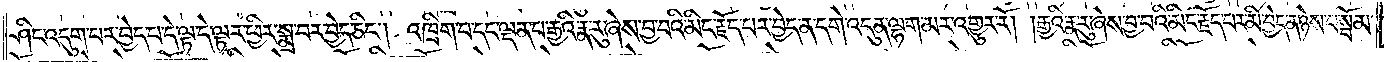ཤིང་འདུག་པར་བྱེད་པ་དེ་ལྟ་དེ་ལྟར་ཕྱིར་སྨྲ་བར་བྱེད་ཅིང༌། འཁྲིག་པ་དང་ལྡན་པ་རྒྱའི་རྣ་རུ་ཞེས་བྱ་བའི་མིང་རྗོད་པར་བྱེད་ན་དགེ་འདུན་ལྷག་མར་འགྱུར་རོ། །རྒྱའི་རྣ་རུ་ཞེས་བྱ་བའི་མིང་རྗོད་པར་མི་བྱེད་ན་ཉེས་པ་སྦོམ་
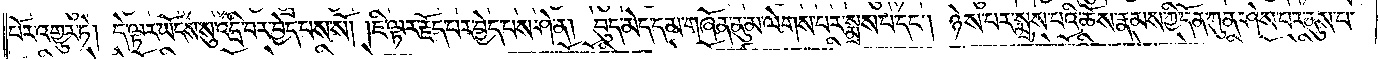པོར་འགྱུར་ཏེ། དེ་ལྟར་ཡོངས་སུ་འདྲི་བར་བྱེད་པས་སོ། །ཇི་ལྟར་རྗོད་པར་བྱེད་པས་ཤེ་ན། བུད་མེད་དམ་གཞོན་ནུ་མ་ལེགས་པར་སྨྲས་པ་དང༌། ཉེས་པར་སྨྲས་པའི་ཆོས་རྣམས་ཀྱི་དོན་ཀུན་ཤེས་པར་ནུས་པ་
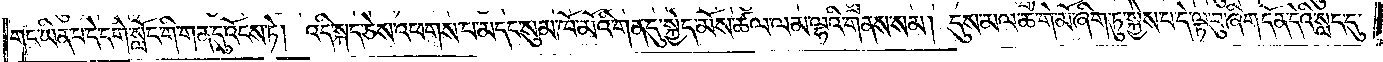གང་ཡིན་པ་དེ་དགེ་སློང་གི་གན་དུ་འོངས་ཏེ། འདི་སྐད་ཅེས་འཕགས་པ་མ་དང་སུ་མ་ཁོ་མོའི་གན་དུ་སྐྱེད་མོས་ཚལ་ལམ་ལྷའི་གནས་སམ། དུས་མལ་ཆེ་གེ་མོ་ཞིག་ཏུ་སྐྱེས་པ་དེ་ལྟ་བུ་ཞིག་དོན་དེའི་སླད་དུ་
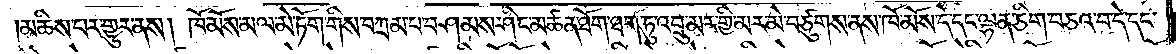།མཆིས་པར་གྱུར་ནས། ཁོ་མོས་མལ་མེ་ཏོག་གིས་བཀྲམ་པ་བཤམས་ཤིང་མཚན་ཐོག་ཐག་ཏུ་འབྲུ་མར་གྱི་མར་མེ་བཙུགས་ནས་ཁོ་མོས་དེ་དང་ལྷན་ཅིག་བཅའ་བ་དེ་དང་
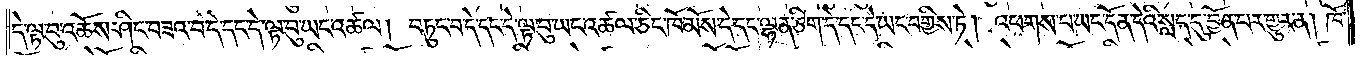དེ་ལྟ་བུ་འཆོས་ཤིང་བཟའ་བ་དེ་དང་དེ་ལྟ་བུ་ཡང་འཚལ། བཏུང་བ་དེ་དང་དེ་ལྟ་བུ་ཡང་འཚལ་ཅིང་ཁོ་མོས་དེ་དང་ལྷན་ཅིག་དེ་དང་དེ་ཡང་བགྱིས་ཏེ། འཕགས་པ་ཡང་དོན་དེའི་སླད་དུ་བྱོན་པར་གྱུར་ན། ཁོ་
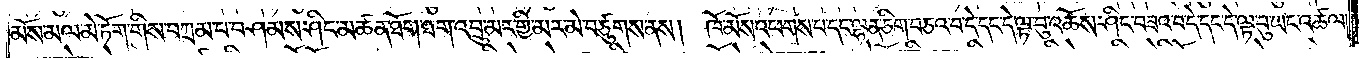མོས་མལ་མེ་ཏོག་གིས་བཀྲམ་པ་བཤམས་ཤིང་མཚན་ཐོག་ཐག་འབྲུ་མར་གྱི་མར་མེ་བཙུགས་ནས། ཁོ་མོས་འཕགས་པ་དང་ལྷན་ཅིག་བཅའ་བ་དེ་དང་དེ་ལྟ་བུ་འཆོས་ཤིང་བཟའ་བ་དེ་དང་དེ་ལྟ་བུ་ཡང་འཚལ།
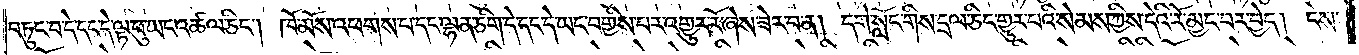བཏུང་བ་དེ་དང་དེ་ལྟ་བུ་ཡང་འཚལ་ཅིང༌། ཁོ་མོས་འཕགས་པ་དང་ལྷན་ཅིག་དེ་དང་དེ་ཡང་བགྱིས་པར་འགྱུར་རོ་ཞེས་ཟེར་བ་ན། དགེ་སློང་གིས་དྲལ་ཅིང་གྱུར་པའི་སེམས་ཀྱིས་དེའི་རོ་མྱང་བར་བྱེད། ངེས་
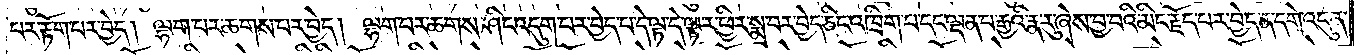པར་རྟོག་པར་བྱེད། ལྷག་པར་ཆགས་པར་བྱེད། ལྷག་པར་ཆགས་ཤིང་འདུག་པར་བྱེད་པ་དེ་ལྟ་དེ་ལྟར་ཕྱིར་སྨྲ་བར་བྱེད་ཅིང་འཁྲིག་པ་དང་ལྡན་པ་རྒྱའི་རྣ་རུ་ཞེས་བྱ་བའི་མིང་རྗོད་པར་བྱེད་ན་དགེ་འདུན་
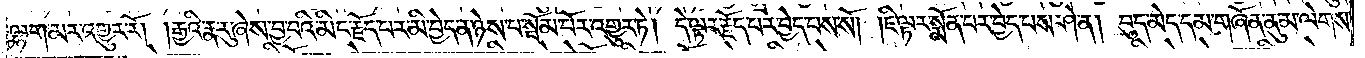ལྷག་མར་འགྱུར་རོ། །རྒྱའི་རྣ་རུ་ཞེས་བྱ་བའི་མིང་རྗོད་པར་མི་བྱེད་ན་ཉེས་པ་སྦོམ་པོར་འགྱུར་ཏེ། དེ་ལྟར་རྗོད་པར་བྱེད་པས་སོ། །ཇི་ལྟར་སྨོན་པར་བྱེད་པས་ཤེ་ན། བུད་མེད་དམ་གཞོན་ནུ་མ་ལེགས་
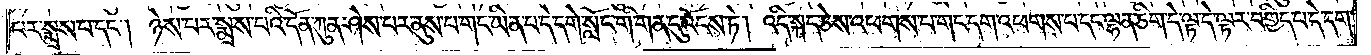པར་སྨྲས་པ་དང༌། ཉེས་པར་སྨྲས་པའི་དོན་ཀུན་ཤེས་པར་ནུས་པ་གང་ཡིན་པ་དེ་དགེ་སློང་གི་གན་དུ་འོངས་ཏེ། འདི་སྐད་ཅེས་འཕགས་པ་གང་དག་འཕགས་པ་དང་ལྷན་ཅིག་དེ་ལྟ་དེ་ལྟར་བགྱིད་པ་དེ་དག་
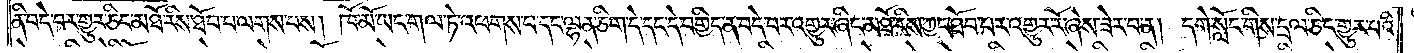ནི་བདེ་བར་གྱུར་ཅིང་མཐོ་རིས་ཐོབ་པ་ལགས་པས། ཁོ་མོ་ཡང་གལ་ཏེ་འཕགས་པ་དང་ལྷན་ཅིག་དེ་དང་དེ་བགྱིད་ན་བདེ་བར་འགྱུར་ཞིང་མཐོ་རིས་ཀྱང་ཐོབ་པར་འགྱུར་རོ་ཞེས་ཟེར་བ་ན། དགེ་སློང་གིས་དྲལ་ཅིང་གྱུར་པའི་
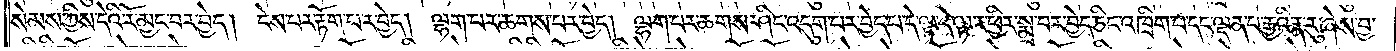སེམས་ཀྱིས་དེའི་རོ་མྱང་བར་བྱེད། ངེས་པར་རྟོག་པར་བྱེད། ལྷག་པར་ཆགས་པར་བྱེད། ལྷག་པར་ཆགས་ཤིང་འདུག་པར་བྱེད་པ་དེ་ལྟ་དེ་ལྟར་ཕྱིར་སྨྲ་བར་བྱེད་ཅིང་འཁྲིག་པ་དང་ལྡན་པ་རྒྱའི་རྣ་རུ་ཞེས་བྱ་
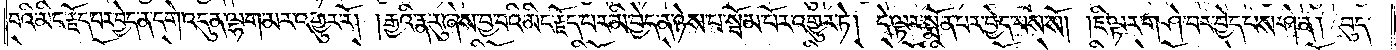བའི་མིང་རྗོད་པར་བྱེད་ན་དགེ་འདུན་ལྷག་མར་འགྱུར་རོ། །རྒྱའི་རྣ་རུ་ཞེས་བྱ་བའི་མིང་རྗོད་པར་མི་བྱེད་ན་ཉེས་པ་སྦོམ་པོར་འགྱུར་ཏེ། དེ་ལྟར་སྨོན་པར་བྱེད་པས་སོ། །ཇི་ལྟར་གཤེ་བར་བྱེད་པས་ཤེ་ན། བུད་
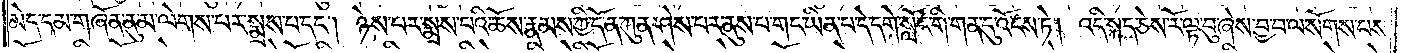མེད་དམ་གཞོན་ནུ་མ་ལེགས་པར་སྨྲས་པ་དང༌། ཉེས་པར་སྨྲས་པའི་ཆོས་རྣམས་ཀྱི་དོན་ཀུན་ཤེས་པར་ནུས་པ་གང་ཡིན་པ་དེ་དགེ་སློང་གི་གན་དུ་འོངས་ཏེ། འདི་སྐད་ཅེས་རོ་ལྟ་བུ་ཞེས་བྱ་བ་ལ་སོགས་པས་
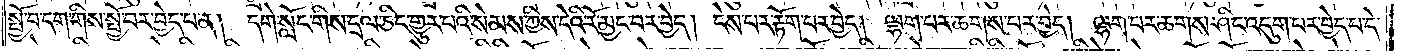སྤྱོ་བ་དག་གིས་སྤྱོ་བར་བྱེད་པ་ན། དགེ་སློང་གིས་དྲལ་ཅིང་གྱུར་པའི་སེམས་ཀྱིས་དེའི་རོ་མྱང་བར་བྱེད། ངེས་པར་རྟོག་པར་བྱེད། ལྷག་པར་ཆགས་པར་བྱེད། ལྷག་པར་ཆགས་ཤིང་འདུག་པར་བྱེད་པ་དེ་
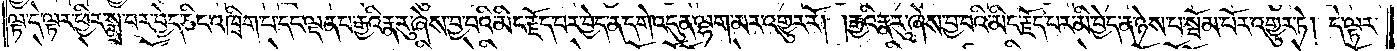ལྟ་དེ་ལྟར་ཕྱིར་སྨྲ་བར་བྱེད་ཅིང་འཁྲིག་པ་དང་ལྡན་པ་རྒྱའི་རྣ་རུ་ཞེས་བྱ་བའི་མིང་རྗོད་པར་བྱེད་ན་དགེ་འདུན་ལྷག་མར་འགྱུར་རོ། །རྒྱའི་རྣ་རུ་ཞེས་བྱ་བའི་མིང་རྗོད་པར་མི་བྱེད་ན་ཉེས་པ་སྦོམ་པོར་འགྱུར་ཏེ། དེ་ལྟར་
